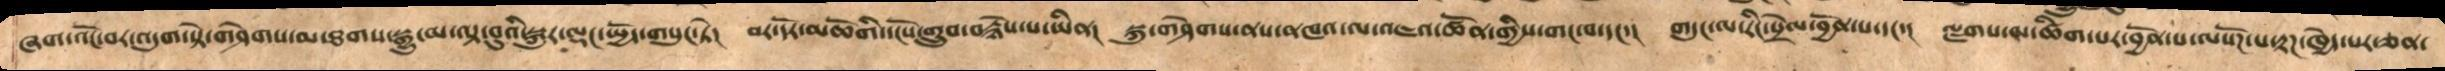ཞག་འོང་བར་འདུག་སྟེ་གཤེགས་མ་ཐགས་སྒྱུ་མ་ལྟ་བུའི་སྐུར་ལྡང་སྤྱོད་གསུང་ཏེ།  བར་དོ་མཆོགི་དངོས་གྲུབ་བརྙེས་པ་ཡིན།  སྐུ་གཤེགས་ནས་ནཁའ་ལ་འཇའ་ཚོན་གྱིས་གང་བ་དང་།  གདུང་ལ་རིང་སྲེལ་བྱོན་པ་དང་།  ལྗགས་མ་ཚིག་པར་བྱོན་པ་ལསོཌ་པ་རྟཌ་ཁྱེད་པར་ཅན་
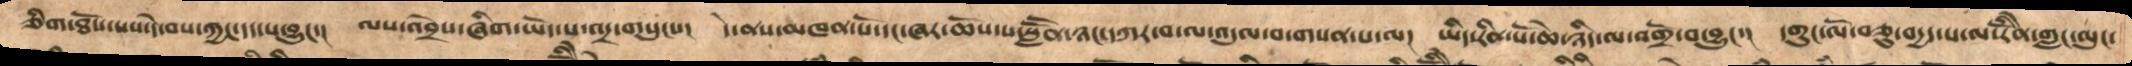ཅིག་ཐོས་པས་དེ་བས་ཀྱང་དད་པ་བྱུང་།  ལས་འབྲེས་ཞིག་ཡོད་པ་འདྲ་གསུངས།  དེ་ནས་མཁན་པོ་དང་ཞར་ཆོས་པ་སླཽན་ཉང་དཀར་བ་ལ་འདུལ་བ་གསན་པ་ལ།  ཡིད་རིན་པོ་ཆེ་ཉིད་ལ་འགྲོ་བ་བྱུང་།  དགུང་ལོ་བཅུ་བདྱད་པ་ལ་རིནོེ་གླང་ལུང་
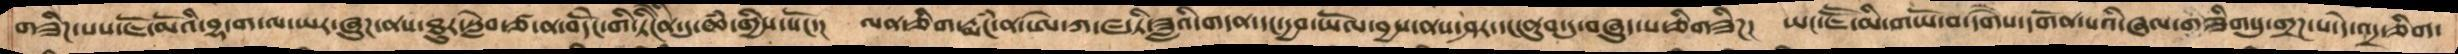གཟིཌ་པས་ཇོ་མོའི་བྷ་ག་ལ་ཡར་ཞུཌ་ནས་ཐུར་སླེབ་ཙ་ན་བདེངོ་གི་ཏིངེནི་དུ་ཆཾ་གྱིས་སོང་།   ལན་ཅིག་རྨངཾ་ན་ཨེ་ཀ་ཛ་ཏི་ཟླའི་གདན་དང་དྱབ་ཡོལ་བྱས་ནས་ཤར་དང་ནུབ་དུ་བཞུད་པ་ཅིགཟིཌ།  ཡང་ཇཽ་མི་གཡོ་བ་དགཻས་དགོན་པའི་ཞལ་གཟིགསུ་གྲཌ་པ་དེ་འདྲ་ཅིག་
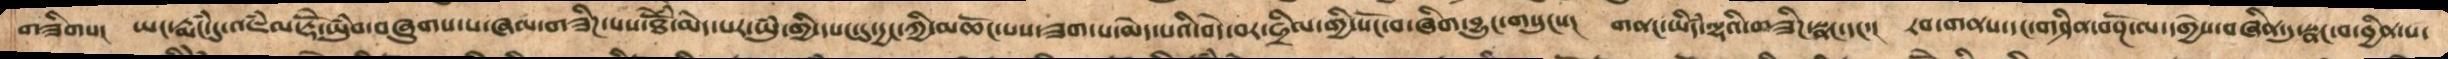གཟིགས།  ཡང་རྨཾང་དུ་འཇཾལ་རྡོེ་ཡུཾབ་བཞུགས་པ་ཞལ་གཟིཌ་པས་ཐོེཾ་མེད་པར་ཡུཾ་གྱི་དཔང་དུ་དྱང་ཀྱི་མཆོང་པས་ཟག་པ་མེད་པའི་བདེ་བར་ཧྲིལ་གྱི་སོང་བ་ཞིག་བྱུང་གསུངས།  གནང་ཡིདཾ་ལྷའི་གཟིཌ་སྣང་དང་།  རབ་གནས་དང་གཤིན་བསྔོ་ལ་དགྱེས་བཞིན་དུ་སྣང་བ་བྱིན་པ་
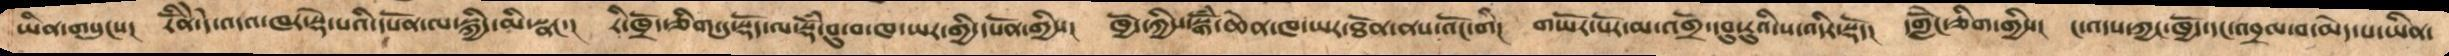ཡིན་གསུངས།   རིནོེ་དེ་འདའ་ཁར་སྡེ་པའི་དཔོན་ལ་སྐྱིད་མི་སྣང་།  རི་ཁྲོད་ཅིག་དུ་སྡོད་ལ་སྡོཾ་བུ་བ་ཁ་ཡར་གྱི་དཔོན་གྱིས།   ཁྱོད་ཀྱིས་སྒོཾ་ཆེན་ཁ་ཡར་ཐོན་ནས་འོང་གི།  གཡོར་པོར་མ་འགྲོ་དབུ་རུའི་ས་འདིར་སྡོད།  དགླེངོ་ཅིག་གྱིས།  ང་འདས་ཀྱང་ཁྱོད་དང་འབྲལ་བ་མེད་པ་ཡིན།
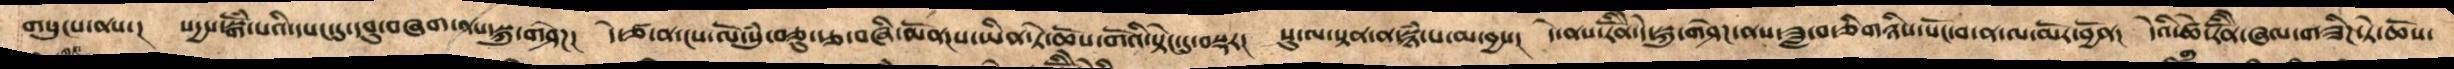གསུངས་ནས་།  སདྱས་སྒོཾ་པའི་དཔང་དུ་དབུ་བཞག་ནས་སྐུ་གཤེཌ།  དེ་ཙ་ན་ངས་ལོ་སུཾ་བཅུ་རྩ་བཞི་མོནཌས་ཡིན་ཏེ་ཆོས་གོའི་སྟེང་དུ་བསྡར།  སུ་ལ་སྟན་ན་སྙཾ་པ་མ་བྱས།  དེ་ནས་རིནོེ་དེ་སྐུ་གཤེཌ་ནས་ཟླ་བ་ཅིགཉིས་སོང་བ་ན་ལ་མོར་བྱོན།  དེའི་ཚེ་རིནོེ་ཞལ་གཟིཌ་ཏེ་ཆོས་
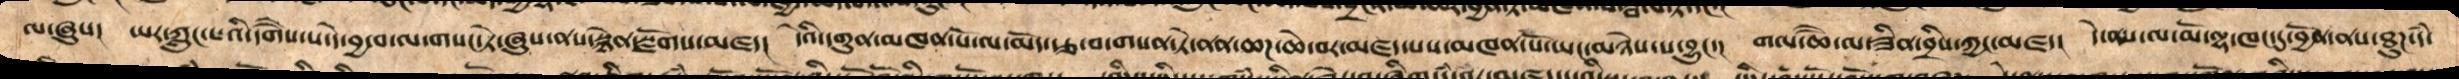ལ་ཞུས།།   ཡར་ཀླུང་པའི་དགཻས་པ་དེ་བྱ་བ་ལ་གསང་ཏེ་ཞུས་ནས་སྙེན་སྫོགས་མཛད།  དེའི་དགུན་མཁན་པོ་ལ་མདོ་རྩ་བ་གསན་ཏེ་ནན་ཆཌ་ཆེ་བར་མཛད་པས་མཁན་པོ་ཡང་མཉེས་པ་བྱུང་།  གལ་ཆཻ་ལ་ཟིན་བྲིས་ཀྱང་མཛད།  དེ་ནས་ལ་མོ་ལྷ་ཁང་དུ་བྱོན་ནས་ཐུཌ་དཾ་
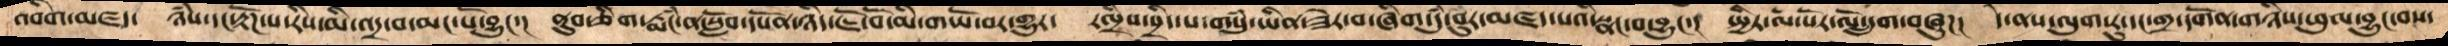འབིག་མཛད་   ཉཾས་དང་རྟོཌ་པ་རིས་མི་འདྲ་བ་མང་པོ་བྱུང་།  ནུབ་ཅིག་རྨཾང་ན་སློབ་དཔོན་ཉིད་ཇོ་བོ་མི་གཡོ་བར་གྱུར་  རལྱིས་སྲིད་པ་གསུཾ་ཡིན་ཟེར་བ་ཞིག་དུཾ་བུར་མཛད་པའི་སྣང་བ་བྱུང་།  སྤྱིར་ལོ་པོར་ལོ་དྲུག་བཞུཌ།  དེ་ནས་ལུག་རུ་དང་གྲ་དགོན་གཉིས་ཕུལ་བྱུང་བས་
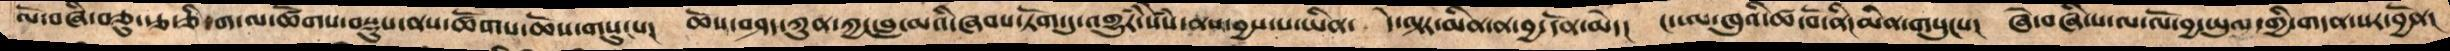ལོ་བཞི་བཅུ་རྩ་ཅིག་ལ་ཚོགས་བསྡུས་ནས་ཚོགས་ཆོས་གསུངས།   ཆོས་བཤད་ཀུན་ཀྱང་བླ་མའི་ཞབས་ཏོག་དུ་འགྱུརཾ་སེཾས་ནས་བྱས་པ་ཡིན་  དེ་ལྟར་མིན་ན་བྱ་དོན་མེད།  ང་ལ་ཁུའི་ཚ་བོ་ནི་མིན་གསུངས།  ཞེ་བཞི་པ་ལ་ལོ་བྱ་ཡུལ་གྱི་གདན་སར་བྱོན།
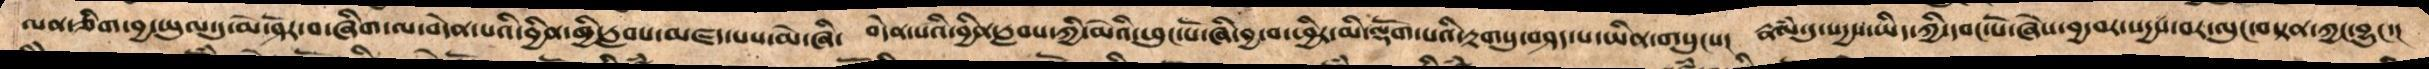ལན་ཅིག་བྱ་ཡུལ་དུ་མེ་ཤོར་བ་ཞིག་ལ་བདེན་པའི་བྱིན་གྱི་རླབས་མཛད་པས་མེ་ཞི་  བདེན་པའི་བྱིན་རླབས་ཀྱི་མེའི་ཕུང་པོ་ཞི་བྱ་བ་ཕྱིར་མི་ལྡོག་པའི་རྟགསུ་བཤད་པ་ཡིན་གསུངས།  རྣཾལ་དུ་སདྱས་ཡིད་ཀྱི་དབང་པོ་ཞེས་བྱ་བར་སདྱས་བར་ལུང་བསྟན་ཀྱང་བྱུང་།
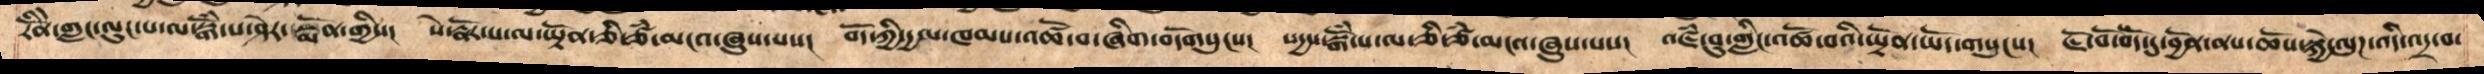རིནོེ་གླང་ལུང་པ་ལ་སྒོཾ་པ་ཤེར་སྨོན་གྱིས།  སེ་རྣོར་པ་ལ་ཡྟོན་ཅོ་ཙཾ་མངའ་ཞུས་པས།   བོད་ཀྱི་དྱལ་ཁམས་འཚོ་བ་ཞིག་བདོགསུངས།  སདྱས་སྒོཾ་པ་ལ་ཅི་ཙཾ་མངའ་ཞུས་པས།  འཛཾ་བུ་གླིང་འཚོ་བའི་ཡྟོན་ཡོད་གསུངས།  ཇོ་བོ་བོད་དུ་བྱོན་ནས་ཆོས་སྐྱེ་ལུཌ་འདི་འདྲ་བ་
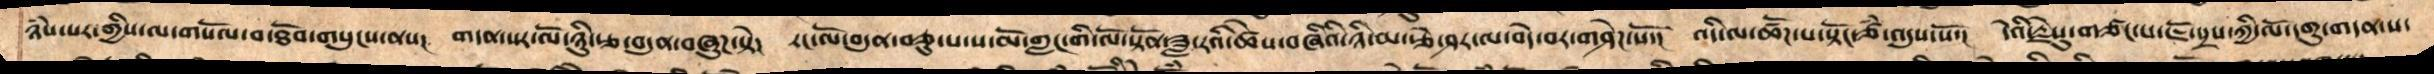ཉཾས་པར་གྱིས་ལ་གསོལ་བ་ཐོབ་གསུངས་ནས།  གདན་སར་ལོ་ཉིུ་རྩ་བདུན་བཞུཌ་སྟེ།  རང་ལོ་བདུན་བཅུ་པ་ས་མོ་གླང་གི་ལོ་སྟོན་ཟླ་རའིཚེས་བཞིའི་ཉི་མ་རྩེ་ཤར་ལ་བདེ་བར་གཤེཌ་སོ་།  འདི་ལ་ཚོཌ་པ་སྟོང་ཙཾ་འདུས་སོ་།  དེའི་རྗེསུ་གཙང་ས་ཇོ་སྲས་ཀྱི་ལོ་དགུ་གདན་ས་
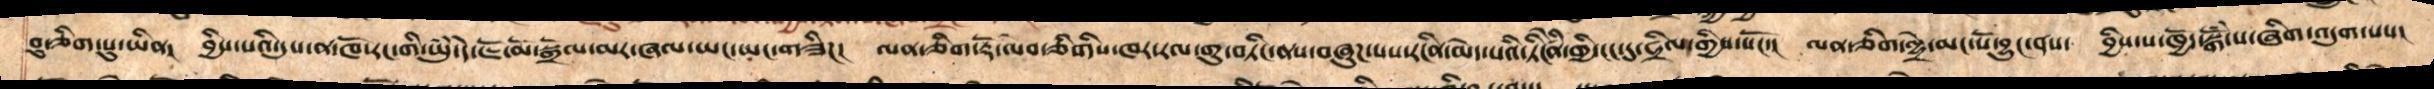བུ་ཅིག་པུ་ཡིན།  བྱིས་པའི་དུས་ན་ཁོ་རང་གི་ཡུཾ་དེ་ཇོ་མོ་སྒྲོལ་མར་ཞལ་ཡང་ཡང་གཟིཌ།  ལན་ཅིག་རྡོ་ལེབ་ཅིགིས་ཁར་རལ་གུ་བཏིང་ནས་བཞུཌ་པས་རངིན་མེད་པའི་ཏིངེཛིན་གྱི་ངང་དུ་ཧྲིལ་གྱིས་སོང་།  ལན་ཅིག་ལྡྲེ་མང་པོ་བྱུང་ནས་    བྱིས་པ་ཁྱོད་སྒོཾ་པ་ཞིག་འདུག་པས།
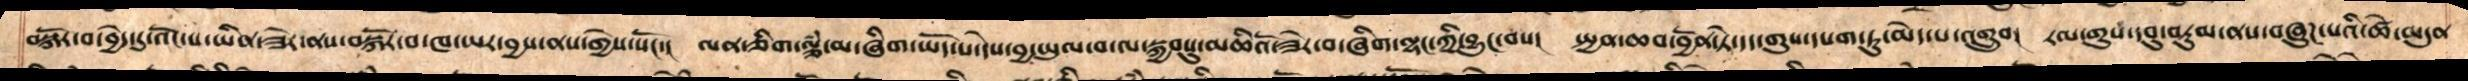བསྐོར་བ་བྱེད་དུ་འོང་པ་ཡིན་ཟེར་ནས་བསྐོར་བ་ཁ་ཡར་བྱས་ནས་གྱེས་སོང་།   ལན་ཅིག་ལྕཾ་མ་ཞིག་ཡོད་པ་དེས་བྱ་ཡུལ་བ་ལ་སྐྱབསུ་མཆིའོ་ཟེར་བ་ཞིག་ལྷང་ཀྱི་བྱུང་བས།   སྤྱན་ཆབ་བྱོན་ཏེ་དད་གུས་དཔག་ཏུ་མེད་པ་འགྲུབ།  རལ་གུས་དབུ་བཏུམ་ནས་བཞུཌ་པའི་ཚེ་མདུན
